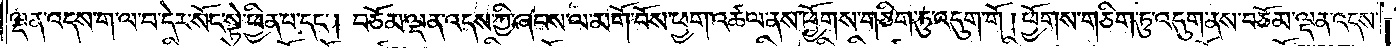ལྡན་འདས་ག་ལ་བ་དེར་སོང་སྟེ་ཕྱིན་པ་དང༌། བཅོམ་ལྡན་འདས་ཀྱི་ཞབས་ལ་མགོ་བོས་ཕྱག་འཚལ་ནས་ཕྱོགས་གཅིག་ཏུ་འདུག་གོ །ཕྱོགས་གཅིག་ཏུ་འདུག་ནས་བཅོམ་ལྡན་འདས་
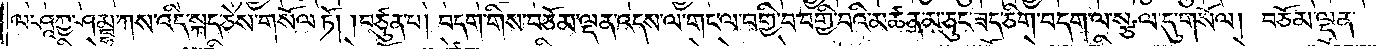ལ་ཤཱཀྱ་ཤམྦྷ་ཀས་འདི་སྐད་ཅེས་གསོལ་ཏོ། །བཙུན་པ། བདག་གིས་བཅོམ་ལྡན་འདས་ལ་གང་ལ་བགྱི་བ་བགྱི་བའི་མཚན་མ་ཅུང་ཟད་ཅིག་བདག་ལ་སྩལ་དུ་གསོལ། བཅོམ་ལྡན་
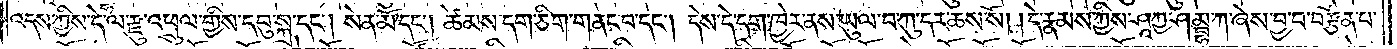འདས་ཀྱིས་དེ་ལ་རྫུ་འཕྲུལ་གྱིས་དབུ་སྐྲ་དང༌། སེན་མོ་དང༌། ཚེམས་དག་ཅིག་གནང་བ་དང༌། དེས་དེ་དག་ཁྱེར་ནས་ཡུལ་བ་ཀུ་དར་ཆས་སོ། །དེ་རྣམས་ཀྱིས་ཤཱཀྱ་ཤམྦྷ་ཀ་ཞེས་བྱ་བ་བརྩོན་པ་
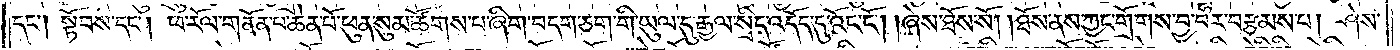དང༌། སྟོབས་དང༌། ཕ་རོལ་གནོན་པ་ཆེན་པོ་ཕུན་སུམ་ཚོགས་པ་ཞིག་བདག་ཅག་གི་ཡུལ་དུ་རྒྱལ་སྲིད་འདོད་དུ་འོང་ངོ༌། །ཞེས་ཐོས་སོ། །ཐོས་ནས་ཀྱང་གྲོགས་བྱ་བར་བརྩམས་པ། ཤེས་
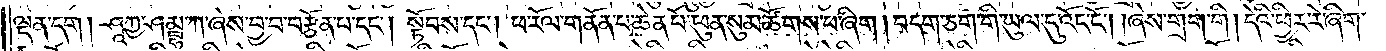ལྡན་དག །ཤཱཀྱ་ཤམྦྷ་ཀ་ཞེས་བྱ་བ་བརྩོན་པ་དང༌། སྟོབས་དང༌། ཕ་རོལ་གནོན་པ་ཆེན་པོ་ཕུན་སུམ་ཚོགས་པ་ཞིག །བདག་ཅག་གི་ཡུལ་དུ་འོང་ངོ༌། །ཞེས་གྲག་གི །དེའི་ཕྱིར་རེ་ཞིག་
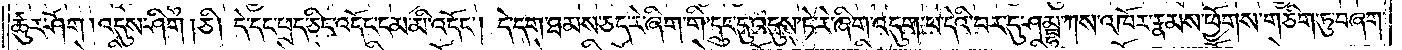ཚུར་ཤོག །འདུས་ཤིག །ཅི། དེ་དང་ཕྲད་ཅིང་འདོང་ངམ་མི་འདོང༌། དེ་དག་ཐམས་ཅད་རེ་ཞིག་གི་དྲུང་དུ་འདུས་ཏེ་རེ་ཞིག་འདུག་པ་དེའི་བར་དུ་ཤམྦྷ་ཀས་འཁོར་རྣམས་ཕྱོགས་གཅིག་ཏུ་བཞག་
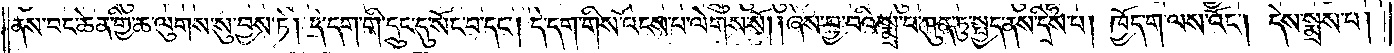ནས་བང་ཆེན་གྱི་ཆ་ལུགས་སུ་བྱས་ཏེ། དེ་དག་གི་དྲུང་དུ་སོང་བ་དང༌། དེ་དག་གིས་འོངས་པ་ལེགས་སོ། །ཞེས་བྱ་བའི་སྨྲ་བ་ཀུན་ཏུ་སྤྱད་ནས་དྲིས་པ། ཁྱོད་ག་ལས་འོང༌། དེས་སྨྲས་པ།
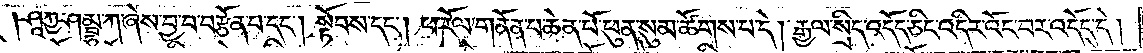ཤཱཀྱ་ཤམྦྷ་ཀ་ཞེས་བྱ་བ་བརྩོན་པ་དང༌། སྟོབས་དང༌། ཕ་རོལ་གནོན་པ་ཆེན་པོ་ཕུན་སུམ་ཚོགས་པ་དེ། རྒྱལ་སྲིད་འདོད་ཅིང་འདིར་འོང་བར་འདོད་དེ།
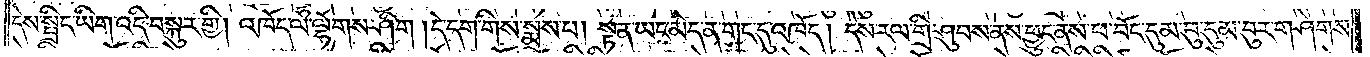དེས་སྤྲིང་ཡིག་འདི་བསྐུར་གྱི། འཁོད་ལ་ལྷོགས་ཤིག །དེ་དག་གིས་སྨྲས་པ། སྟན་ཡང་མེད་ན་གང་དུ་འཁོད། དེས་རལ་གྲི་ཤུབས་ནས་ཕྱུང་ནས་ཕ་བོང་དུམ་བུ་དུམ་བུར་གཤེགས་
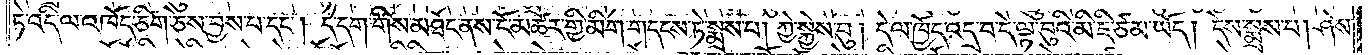ཏེ་འདི་ལ་འཁོད་ཅིག་ཅེས་བྱས་པ་དང༌། དེ་དག་གིས་མཐོང་ནས་ངོ་མཚར་གྱི་མིག་གདངས་ཏེ་སྨྲས་པ། ཀྱེ་སྐྱེས་བུ། དེ་ལ་ཁྱོད་འདྲ་བ་དེ་ལྟ་བུའི་མི་ཇི་ཙམ་ཡོད། དེས་སྨྲས་པ། ཤེས་
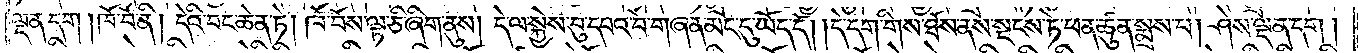ལྡན་དག །ཁོ་བོ་ནི། དེའི་བང་ཆེན་ཏེ། ཁོ་བོས་ལྟ་ཅི་ཞིག་ནུས། དེ་ལ་སྐྱེས་བུ་དཔའ་བོ་གཞན་མང་དུ་ཡོད་དོ། །དེ་དག་གིས་ཐོས་ནས་སྡངས་ཏེ་ཕན་ཚུན་སྨྲས་པ། ཤེས་ལྡན་དག །
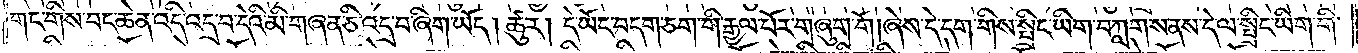གང་གིས་བང་ཆེན་འདི་འདྲ་བ་དེའི་མི་གཞན་ཅི་འདྲ་བ་ཞིག་ཡོད། ཚུར། དེ་ཡོང་བདག་ཅག་གི་རྒྱལ་པོར་གཞུག་གོ། ཞེས་དེ་དག་གིས་སྤྲིང་ཡིག་བཀླགས་ནས་དེ་ལ་སྤྲིང་ཡིག་གི་
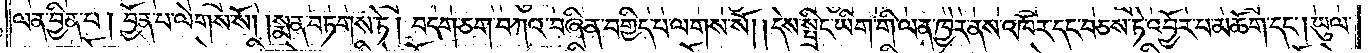ལན་བྱིན་པ། བྱོན་པ་ལེགས་སོ། །སྨན་བཏགས་ཏེ། བདག་ཅག་བཀའ་བཞིན་བགྱིད་པ་ལགས་སོ། །དེས་སྤྲིང་ཡིག་གི་ལན་ཁྱེར་ནས་འཁོར་དང་བཅས་ཏེ་འབྱོར་པ་མཆོག་དང༌། ཡུལ་
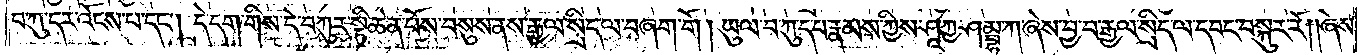བ་ཀུ་དར་འོངས་པ་དང༌། དེ་དག་གིས་དེ་བཀུར་སྟི་ཆེན་པོས་བསུས་ནས་རྒྱལ་སྲིད་ལ་བཞག་གོ །ཡུལ་བ་ཀུ་ད་པ་རྣམས་ཀྱིས་ཤཱཀྱ་ཤམྦྷ་ཀ་ཞེས་བྱ་བ་རྒྱལ་སྲིད་ལ་དབང་བསྐུར་རོ། །ཞེས་
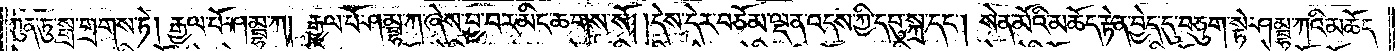ཀུན་ཏུ་སྒྲ་གྲགས་ཏེ། རྒྱལ་པོ་ཤམྦྷ་ཀ། རྒྱལ་པོ་ཤམྦྷ་ཀ་ཞེས་བྱ་བར་མིང་ཆགས་སོ། །དེས་དེར་བཅོམ་ལྡན་འདས་ཀྱི་དབུ་སྐྲ་དང༌། སེན་མོའི་མཆོད་རྟེན་བྱེད་དུ་བཅུག་སྟེ་ཤམྦྷ་ཀའི་མཆོད་
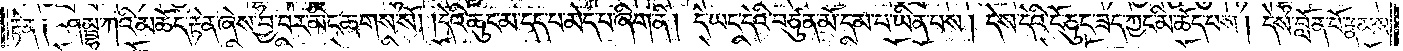རྟེན། ཤམྦྷ་ཀའི་མཆོད་རྟེན་ཞེས་བྱ་བར་མིང་ཆགས་སོ། །དེའི་ཆུང་མ་དད་པ་མེད་པ་ཞིག་ནི། དེ་ཡང་དེའི་བཙུན་མོ་དམ་པ་ཡིན་པས། དེས་དེའི་ངོ་ཅུང་ཟད་ཀྱང་མི་ཆོད་པས། དེས་བློན་པོ་རྣམས་
